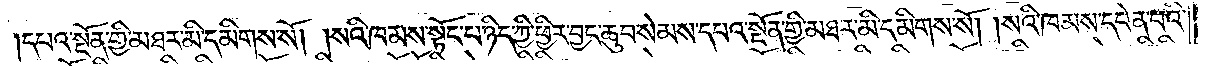དཔའ་སྔོན་གྱི་མཐར་མི་དམིགས་སོ། །སའི་ཁམས་སྟོང་པ་ཉིད་ཀྱི་ཕྱིར་བྱང་ཆུབ་སེམས་དཔའ་སྔོན་གྱི་མཐར་མི་དམིགས་སོ། །སའི་ཁམས་དབེན་པའི་
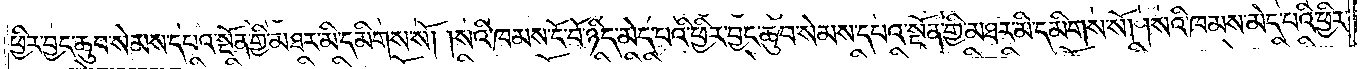ཕྱིར་བྱང་ཆུབ་སེམས་དཔའ་སྔོན་གྱི་མཐར་མི་དམིགས་སོ། །སའི་ཁམས་ངོ་བོ་ཉིད་མེད་པའི་ཕྱིར་བྱང་ཆུབ་སེམས་དཔའ་སྔོན་གྱི་མཐར་མི་དམིགས་སོ། །སའི་ཁམས་མེད་པའི་ཕྱིར་
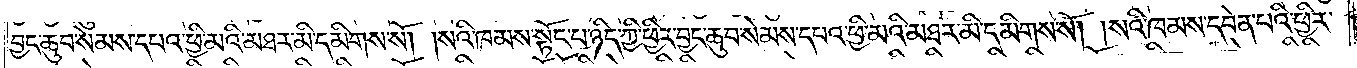བྱང་ཆུབ་སེམས་དཔའ་ཕྱི་མའི་མཐར་མི་དམིགས་སོ། །སའི་ཁམས་སྟོང་པ་ཉིད་ཀྱི་ཕྱིར་བྱང་ཆུབ་སེམས་དཔའ་ཕྱི་མའི་མཐར་མི་དམིགས་སོ། །སའི་ཁམས་དབེན་པའི་ཕྱིར་
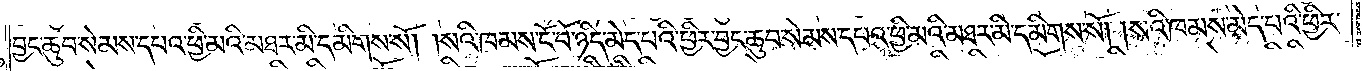བྱང་ཆུབ་སེམས་དཔའ་ཕྱི་མའི་མཐར་མི་དམིགས་སོ། །སའི་ཁམས་ངོ་བོ་ཉིད་མེད་པའི་ཕྱིར་བྱང་ཆུབ་སེམས་དཔའ་ཕྱི་མའི་མཐར་མི་དམིགས་སོ། །སའི་ཁམས་མེད་པའི་ཕྱིར་
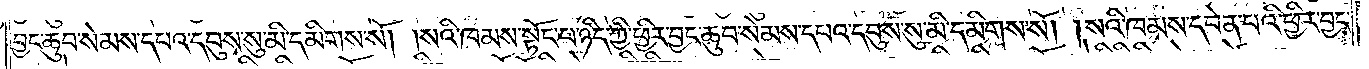བྱང་ཆུབ་སེམས་དཔའ་དབུས་སུ་མི་དམིགས་སོ། །སའི་ཁམས་སྟོང་པ་ཉིད་ཀྱི་ཕྱིར་བྱང་ཆུབ་སེམས་དཔའ་དབུས་སུ་མི་དམིགས་སོ། །སའི་ཁམས་དབེན་པའི་ཕྱིར་བྱང་
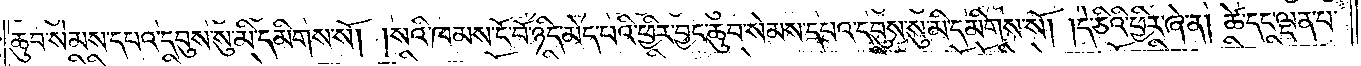ཆུབ་སེམས་དཔའ་དབུས་སུ་མི་དམིགས་སོ། །སའི་ཁམས་ངོ་བོ་ཉིད་མེད་པའི་ཕྱིར་བྱང་ཆུབ་སེམས་དཔའ་དབུས་སུ་མི་དམིགས་སོ། །དེ་ཅིའི་ཕྱིར་ཞེ་ན། ཚེ་དང་ལྡན་པ་
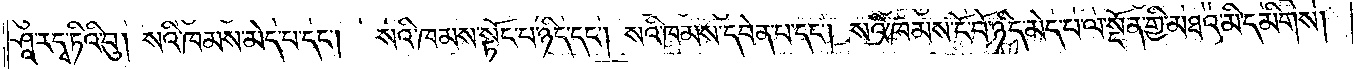ཤཱ་རདྭ་ཏིའི་བུ། སའི་ཁམས་མེད་པ་དང༌། སའི་ཁམས་སྟོང་པ་ཉིད་དང༌། སའི་ཁམས་དབེན་པ་དང༌། སའི་ཁམས་ངོ་བོ་ཉིད་མེད་པ་ལ་སྔོན་གྱི་མཐའ་མི་དམིགས།
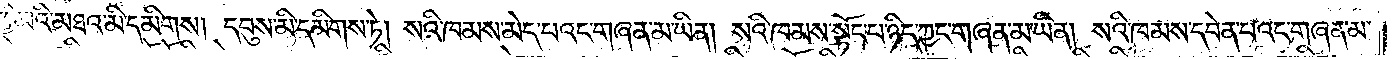ཕྱི་མའི་མཐའ་མི་དམིགས། དབུས་མི་དམིགས་ཏེ། སའི་ཁམས་མེད་པའང་གཞན་མ་ཡིན། སའི་ཁམས་སྟོང་པ་ཉིད་ཀྱང་གཞན་མ་ཡིན། སའི་ཁམས་དབེན་པའང་གཞན་མ་
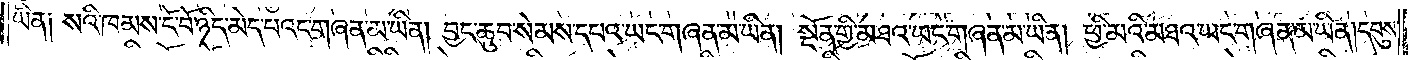ཡིན། སའི་ཁམས་ངོ་བོ་ཉིད་མེད་པའང་གཞན་མ་ཡིན། བྱང་ཆུབ་སེམས་དཔའ་ཡང་གཞན་མ་ཡིན། སྔོན་གྱི་མཐའ་ཡང་གཞན་མ་ཡིན། ཕྱི་མའི་མཐའ་ཡང་གཞན་མ་ཡིན། དབུས་
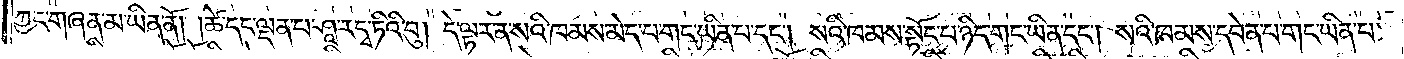ཀྱང་གཞན་མ་ཡིན་ནོ། །ཚེ་དང་ལྡན་པ་ཤཱ་རདྭ་ཏིའི་བུ། དེ་ལྟར་ན་སའི་ཁམས་མེད་པ་གང་ཡིན་པ་དང༌། སའི་ཁམས་སྟོང་པ་ཉིད་གང་ཡིན་པ་དང༌། སའི་ཁམས་དབེན་པ་གང་ཡིན་པ་
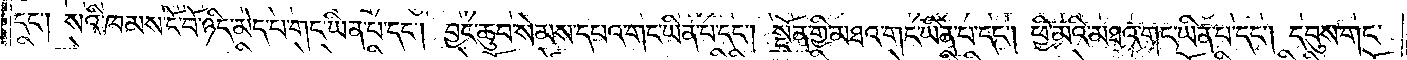དང༌། སའི་ཁམས་ངོ་བོ་ཉིད་མེད་པ་གང་ཡིན་པ་དང༌། བྱང་ཆུབ་སེམས་དཔའ་གང་ཡིན་པ་དང༌། སྔོན་གྱི་མཐའ་གང་ཡིན་པ་དང༌། ཕྱི་མའི་མཐའ་གང་ཡིན་པ་དང༌། དབུས་གང་
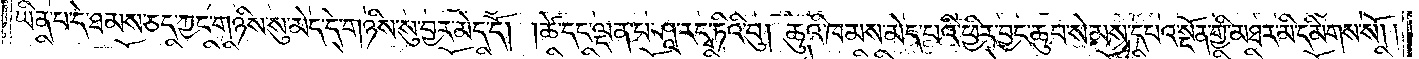ཡིན་པ་དེ་ཐམས་ཅད་ཀྱང་གཉིས་སུ་མེད་དེ་གཉིས་སུ་བྱར་མེད་དོ། །ཚེ་དང་ལྡན་པ་ཤཱ་རདྭ་ཏིའི་བུ། ཆུའི་ཁམས་མེད་པའི་ཕྱིར་བྱང་ཆུབ་སེམས་དཔའ་སྔོན་གྱི་མཐར་མི་དམིགས་སོ། །
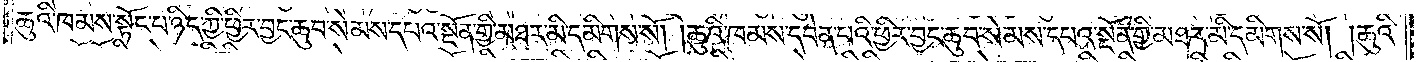ཆུའི་ཁམས་སྟོང་པ་ཉིད་ཀྱི་ཕྱིར་བྱང་ཆུབ་སེམས་དཔའ་སྔོན་གྱི་མཐར་མི་དམིགས་སོ། །ཆུའི་ཁམས་དབེན་པའི་ཕྱིར་བྱང་ཆུབ་སེམས་དཔའ་སྔོན་གྱི་མཐར་མི་དམིགས་སོ། །ཆུའི་
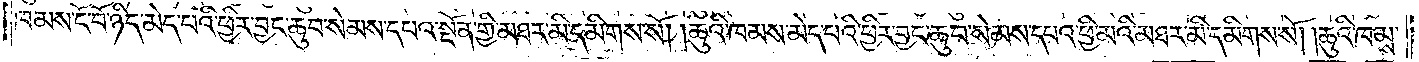ཁམས་ངོ་བོ་ཉིད་མེད་པའི་ཕྱིར་བྱང་ཆུབ་སེམས་དཔའ་སྔོན་གྱི་མཐར་མི་དམིགས་སོ། །ཆུའི་ཁམས་མེད་པའི་ཕྱིར་བྱང་ཆུབ་སེམས་དཔའ་ཕྱི་མའི་མཐར་མི་དམིགས་སོ། །ཆུའི་ཁམས་
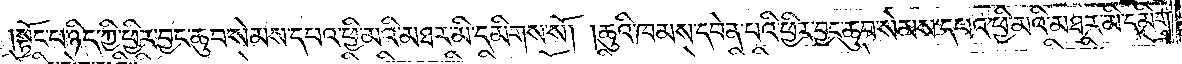སྟོང་པ་ཉིད་ཀྱི་ཕྱིར་བྱང་ཆུབ་སེམས་དཔའ་ཕྱི་མའི་མཐར་མི་དམིགས་སོ། །ཆུའི་ཁམས་དབེན་པའི་ཕྱིར་བྱང་ཆུབ་སེམས་དཔའ་ཕྱི་མའི་མཐར་མི་དམིགས་
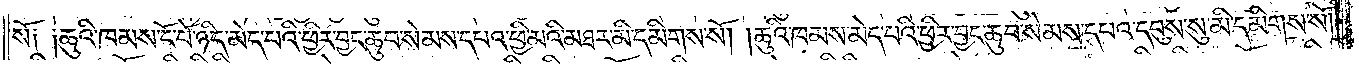སོ། །ཆུའི་ཁམས་ངོ་བོ་ཉིད་མེད་པའི་ཕྱིར་བྱང་ཆུབ་སེམས་དཔའ་ཕྱི་མའི་མཐར་མི་དམིགས་སོ། །ཆུའི་ཁམས་མེད་པའི་ཕྱིར་བྱང་ཆུབ་སེམས་དཔའ་དབུས་སུ་མི་དམིགས་སོ། །
